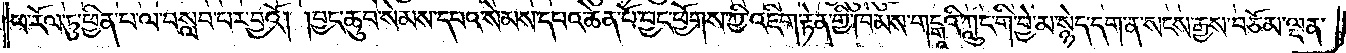ཕ་རོལ་ཏུ་ཕྱིན་པ་ལ་བསླབ་པར་བྱའོ། །བྱང་ཆུབ་སེམས་དཔའ་སེམས་དཔའ་ཆེན་པོ་བྱང་ཕྱོགས་ཀྱི་འཇིག་རྟེན་གྱི་ཁམས་གངྒཱའི་ཀླུང་གི་བྱེ་མ་སྙེད་དག་ན་སངས་རྒྱས་བཅོམ་ལྡན་
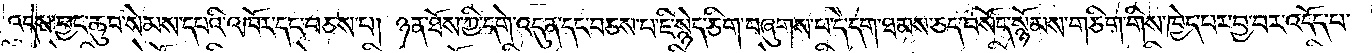འདས་བྱང་ཆུབ་སེམས་དཔའི་འཁོར་དང་བཅས་པ། ཉན་ཐོས་ཀྱི་དགེ་འདུན་དང་བཅས་པ་ཇི་སྙེད་ཅིག་བཞུགས་པ་དེ་དག་ཐམས་ཅད་བསོད་སྙོམས་གཅིག་གིས་ཁྱེད་པར་བྱ་བར་འདོད་པ་
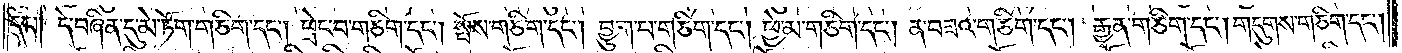དང༌། དེ་བཞིན་དུ་མེ་ཏོག་གཅིག་དང༌། ཕྲེང་བ་གཅིག་དང༌། སྤོས་གཅིག་དང༌། བྱུག་པ་གཅིག་དང༌། ཕྱེ་མ་གཅིག་དང༌། ན་བཟའ་གཅིག་དང༌། རྒྱན་གཅིག་དང༌། གདུགས་གཅིག་དང༌།
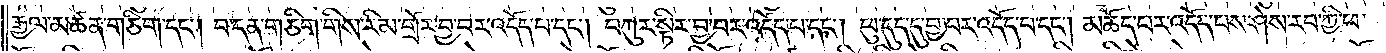རྒྱལ་མཚན་གཅིག་དང༌། བ་དན་གཅིག་གིས་རིམ་གྲོར་བྱ་བར་འདོད་པ་དང༌། བཀུར་སྟིར་བྱ་བར་འདོད་པ་དང༌། ཕུ་དུད་དུ་བྱ་བར་འདོད་པ་དང༌། མཆོད་པར་འདོད་པས་ཤེས་རབ་ཀྱི་ཕ་
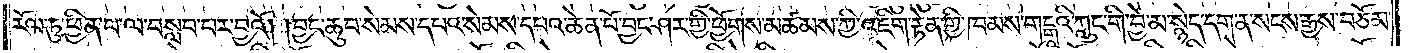རོལ་ཏུ་ཕྱིན་པ་ལ་བསླབ་པར་བྱའོ། །བྱང་ཆུབ་སེམས་དཔའ་སེམས་དཔའ་ཆེན་པོ་བྱང་ཤར་གྱི་ཕྱོགས་མཚམས་ཀྱི་འཇིག་རྟེན་གྱི་ཁམས་གངྒཱའི་ཀླུང་གི་བྱེ་མ་སྙེད་དག་ན་སངས་རྒྱས་བཅོམ་
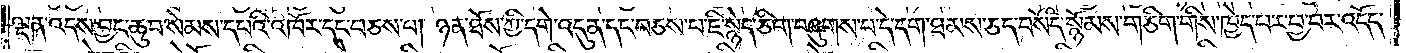ལྡན་འདས་བྱང་ཆུབ་སེམས་དཔའི་འཁོར་དང་བཅས་པ། ཉན་ཐོས་ཀྱི་དགེ་འདུན་དང་བཅས་པ་ཇི་སྙེད་ཅིག་བཞུགས་པ་དེ་དག་ཐམས་ཅད་བསོད་སྙོམས་གཅིག་གིས་ཁྱེད་པར་བྱ་བར་འདོད་
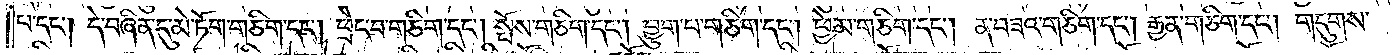པ་དང༌། དེ་བཞིན་དུ་མེ་ཏོག་གཅིག་དང༌། ཕྲེང་བ་གཅིག་དང༌། སྤོས་གཅིག་དང༌། བྱུག་པ་གཅིག་དང༌། ཕྱེ་མ་གཅིག་དང༌། ན་བཟའ་གཅིག་དང༌། རྒྱན་གཅིག་དང༌། གདུགས་
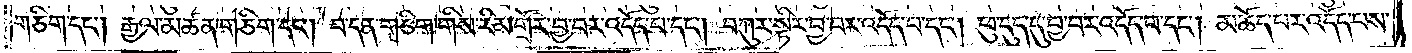གཅིག་དང༌། རྒྱལ་མཚན་གཅིག་དང༌། བ་དན་གཅིག་གིས་རིམ་གྲོར་བྱ་བར་འདོད་པ་དང༌། བཀུར་སྟིར་བྱ་བར་འདོད་པ་དང༌། ཕུ་དུད་དུ་བྱ་བར་འདོད་པ་དང༌། མཆོད་པར་འདོད་པས་
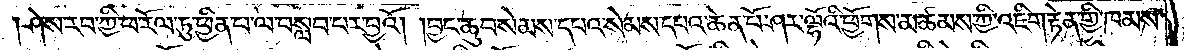ཤེས་རབ་ཀྱི་ཕ་རོལ་ཏུ་ཕྱིན་པ་ལ་བསླབ་པར་བྱའོ། །བྱང་ཆུབ་སེམས་དཔའ་སེམས་དཔའ་ཆེན་པོ་ཤར་ལྷོའི་ཕྱོགས་མཚམས་ཀྱི་འཇིག་རྟེན་གྱི་ཁམས་
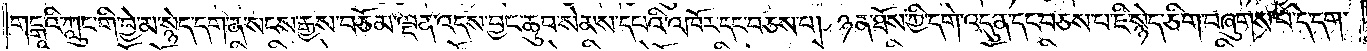གངྒཱའི་ཀླུང་གི་བྱེ་མ་སྙེད་དག་ན་སངས་རྒྱས་བཅོམ་ལྡན་འདས་བྱང་ཆུབ་སེམས་དཔའི་འཁོར་དང་བཅས་པ། ཉན་ཐོས་ཀྱི་དགེ་འདུན་དང་བཅས་པ་ཇི་སྙེད་གཅིག་བཞུགས་པ་དེ་དག་
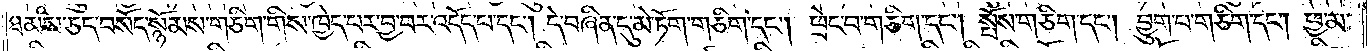ཐམས་ཅད་བསོད་སྙོམས་གཅིག་གིས་ཁྱེད་པར་བྱ་བར་འདོད་པ་དང༌། དེ་བཞིན་དུ་མེ་ཏོག་གཅིག་དང༌། ཕྲེང་བ་གཅིག་དང༌། སྤོས་གཅིག་དང༌། བྱུག་པ་གཅིག་དང༌། ཕྱེ་མ་
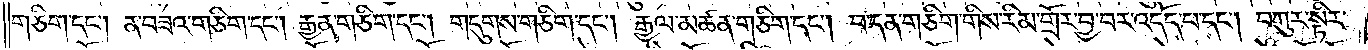གཅིག་དང༌། ན་བཟའ་གཅིག་དང༌། རྒྱན་གཅིག་དང༌། གདུགས་གཅིག་དང༌། རྒྱལ་མཚན་གཅིག་དང༌། བ་དན་གཅིག་གིས་རིམ་གྲོར་བྱ་བར་འདོད་པ་དང༌། བཀུར་སྟིར་
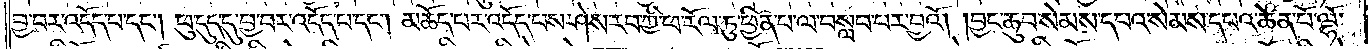བྱ་བར་འདོད་པ་དང༌། ཕུ་དུད་དུ་བྱ་བར་འདོད་པ་དང༌། མཆོད་པར་འདོད་པས་ཤེས་རབ་ཀྱི་ཕ་རོལ་ཏུ་ཕྱིན་པ་ལ་བསླབ་པར་བྱའོ། །བྱང་ཆུབ་སེམས་དཔའ་སེམས་དཔའ་ཆེན་པོ་ལྷོ་
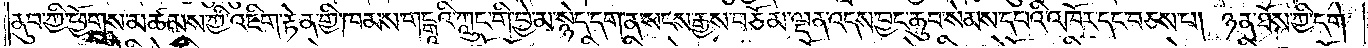ནུབ་ཀྱི་ཕྱོགས་མཚམས་ཀྱི་འཇིག་རྟེན་གྱི་ཁམས་གངྒཱའི་ཀླུང་གི་བྱེ་མ་སྙེད་དག་ན་སངས་རྒྱས་བཅོམ་ལྡན་འདས་བྱང་ཆུབ་སེམས་དཔའི་འཁོར་དང་བཅས་པ། ཉན་ཐོས་ཀྱི་དགེ་
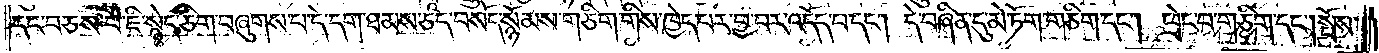དང་བཅས་པ་ཇི་སྙེད་ཅིག་བཞུགས་པ་དེ་དག་ཐམས་ཅད་བསོད་སྙོམས་གཅིག་གིས་ཁྱེད་པར་བྱ་བར་འདོད་པ་དང༌། དེ་བཞིན་དུ་མེ་ཏོག་གཅིག་དང༌། ཕྲེང་བ་གཅིག་དང༌། སྤོས་
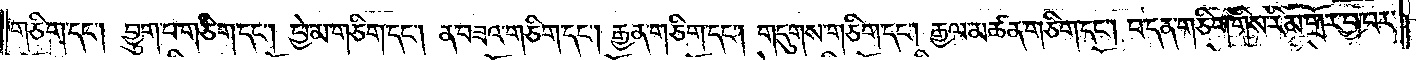གཅིག་དང༌། བྱུག་པ་གཅིག་དང༌། ཕྱེ་མ་གཅིག་དང༌། ན་བཟའ་གཅིག་དང༌། རྒྱན་གཅིག་དང༌། གདུགས་གཅིག་དང༌། རྒྱལ་མཚན་གཅིག་དང༌། བ་དན་གཅིག་གིས་རིམ་གྲོར་བྱ་བར་
